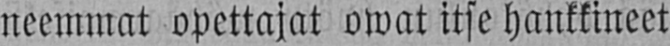neemmat opettajat owat itse hankkineet
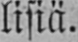lisiä.
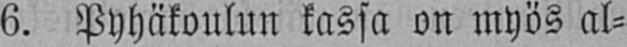6. Pyhäkoulun kassa on myös al-
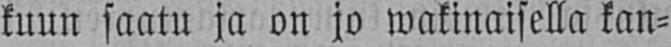kuun saatu ja on jo wakinaisella kan-
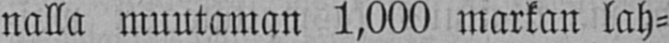nalla muutaman 1,000 markan lah-
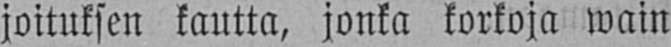joituksen kautta, jonka korkoja wain
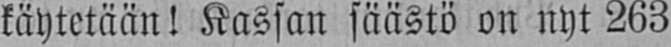käytetään! Kassan säästö on nyt 263
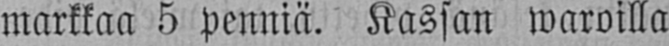markkaa 5 penniä. Kassan waroilla
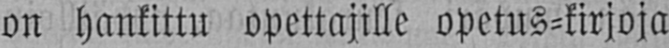on hankittu opettajille opetus-kirjoja
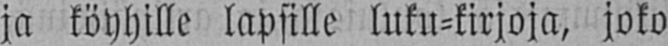ja köyhille lapsille luku-kirjoja, joko
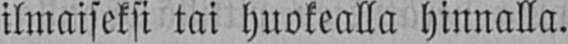ilmaiseksi tai huokealla hinnalla.
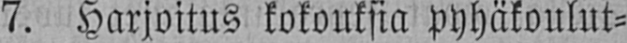7. Harjoitus kokouksia pyhäkoulut-
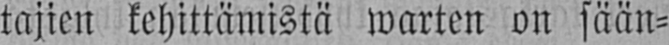tajien kehittämistä warten on sään-
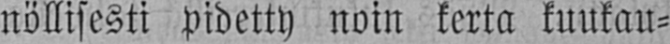nöllisesti pidetty noin kerta kuukau-
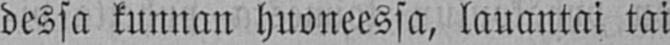dessa kunnan huoneessa, lauantai tai
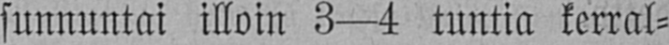sunnuntai illoin 3 —4 tuntia kerral-
